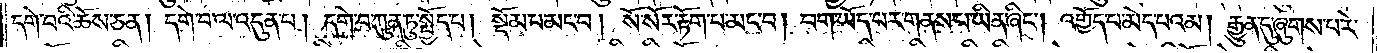དགེ་བའི་ཆོས་ཅན། དགེ་བ་ལ་འདུན་པ། དགེ་བ་ཀུན་ཏུ་སྤྱོད་པ། སྡོམ་པ་མང་བ། སོ་སོར་རྟོག་པ་མང་བ། བག་ཡོད་པར་གནས་པ་ཡིན་ཞིང༌། འགྱོད་པ་མེད་པའམ། རྒྱུན་དུ་ཞུགས་པ་རེ་
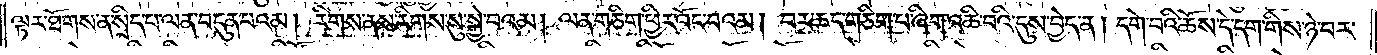ལྟར་ཐོགས་ན་སྲིད་པ་ལན་བདུན་པའམ། རིགས་ནས་རིགས་སུ་སྐྱེ་བའམ། ལན་གཅིག་ཕྱིར་འོང་བའམ། བར་ཆད་གཅིག་པ་ཞིག་འཆི་བའི་དུས་བྱེད་ན། དགེ་བའི་ཆོས་དེ་དག་གིས་ཉེ་བར་
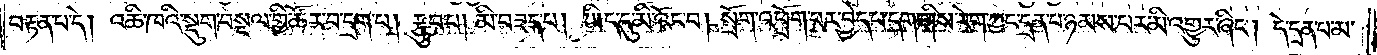བརྟན་པ་དེ། འཆི་ཁའི་སྡུག་བསྔལ་གྱི་ཚོར་བ་དྲག་པ། རྩུབ་པ། མི་བཟད་པ། ཡིད་དུ་མི་འོང་བ། སྲོག་འཕྲོག་པར་བྱེད་པ་དག་གིས་རེག་ཀྱང་དྲན་པ་ཉམས་པར་མི་འགྱུར་ཞིང༌། དེ་དྲན་པ་མ་
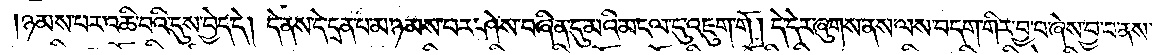ཉམས་པར་འཆི་བའི་དུས་བྱེད་དེ། དེ་ནས་དེ་དྲན་པ་མ་ཉམས་པར་ཤེས་བཞིན་དུ་མའི་མངལ་དུ་འཇུག་གོ། དེ་དེར་ཞུགས་ནས་ལས་བདག་གིར་བྱ་བ་ཞེས་བྱ་བ་ནས་
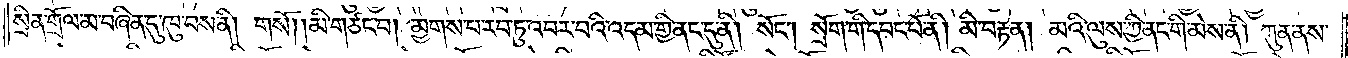སྲིན་གྲོལ་མ་བཞིན་དུ་ཁུ་བས་ནི། གསོ། །མི་གཙང་བ། མྱགས་པ་རབ་ཏུ་འབར་བའི་འདམ་གྱི་ནང་དུ་ནི། སོང༌། སྲོག་གི་དབང་པོ་ནི། མི་བརྟན། མའི་ལུས་ཀྱི་ནང་གི་མེས་ནི། ཀུན་ནས་
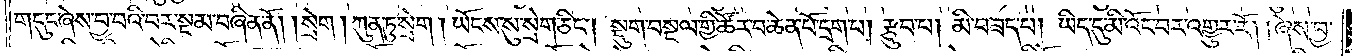གདུང་ཞེས་བྱ་བའི་བར་སྔ་མ་བཞིན་ནོ། །སྲེག། ཀུན་ཏུ་སྲེག། ཡོངས་སུ་སྲེག་ཅིང༌། སྡུག་བསྔལ་གྱི་ཚོར་བ་ཆེན་པོ་དྲག་པ། རྩུབ་པ། མི་བཟད་པ། ཡིད་དུ་མི་འོང་བར་འགྱུར་རོ། །ཞེས་བྱ་
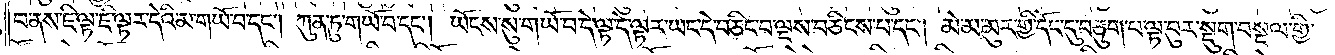བ་ནས་ཇི་ལྟ་ཇི་ལྟར་དེའི་མ་གཡོ་བ་དང༌། ཀུན་ཏུ་གཡོ་བ་དང༌། ཡོངས་སུ་གཡོ་བ་དེ་ལྟ་དེ་ལྟར་ཡང་དེ་བཅིང་བ་ལྔས་བཅིངས་པ་དང༌། མེ་མ་མུར་གྱི་དོང་དུ་བཅུག་པ་ལྟ་བུར་སྡུག་བསྔལ་གྱི་
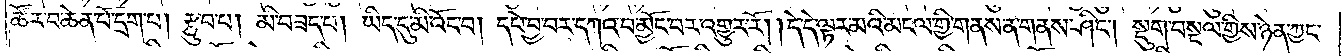ཚོར་བ་ཆེན་པོ་དྲག་པ། རྩུབ་པ། མི་བཟད་པ། ཡིད་དུ་མི་འོང་བ། དཔེ་བྱ་བར་དཀའ་བ་མྱོང་བར་འགྱུར་རོ། །དེ་དེ་ལྟར་མའི་མངལ་གྱི་གནས་ན་གནས་ཤིང༌། སྡུག་བསྔལ་གྱིས་ཉེན་ཀྱང་
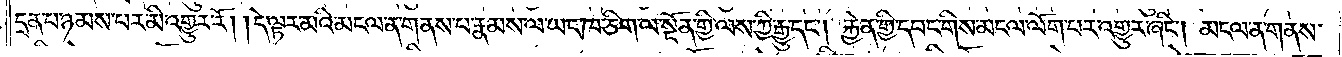དྲན་པ་ཉམས་པར་མི་འགྱུར་རོ། །དེ་ལྟར་མའི་མངལ་ན་གནས་པ་རྣམས་ལ་ཡང་ཁ་ཅིག་ལ་སྔོན་གྱི་ལས་ཀྱི་རྒྱུ་དང༌། རྐྱེན་གྱི་དབང་གིས་མངལ་ལོག་པར་འགྱུར་ཞིང༌། མངལ་ན་གནས་
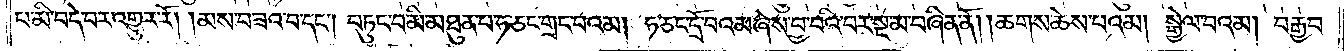པ་མི་བདེ་བར་འགྱུར་རོ། །མས་བཟའ་བ་དང༌། བཏུང་བ་མི་མཐུན་པ་ཧ་ཅང་གྲང་བའམ། ཧ་ཅང་དྲོ་བའམ་ཞེས་བྱ་བའི་བར་སྔ་མ་བཞིན་ནོ། །ཆགས་ཆེས་པའམ། སྒྱེལ་བའམ། བརྒྱབ་
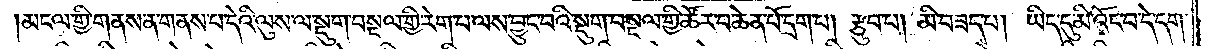མངལ་གྱི་གནས་ན་གནས་པ་དེའི་ལུས་ལ་སྡུག་བསྔལ་གྱི་རེག་པ་ལས་བྱུང་བའི་སྡུག་བསྔལ་གྱི་ཚོར་བ་ཆེན་པོ་དྲག་པ། རྩུབ་པ། མི་བཟད་པ། ཡིད་དུ་མི་འོང་བ་དེ་དག་
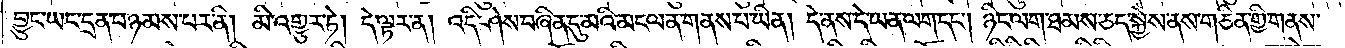བྱུང་ཡང་དྲན་པ་ཉམས་པར་ནི། མི་འགྱུར་ཏེ། དེ་ལྟར་ན། འདི་ཤེས་བཞིན་དུ་མའི་མངལ་ན་གནས་པ་ཡིན། དེ་ནས་དེ་ཡན་ལག་དང༌། ཉིང་ལག་ཐམས་ཅད་སྐྱེས་ནས་གཅིན་གྱི་གནས་
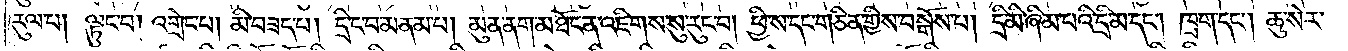རུལ་པ། ལྟུང་བ། འགྲེང་པ། མི་བཟད་པ། དྲི་ང་བ་མནམ་པ། མུན་ནག་མཐོང་ན་འཇིགས་སུ་རུང་བ། ཕྱི་ས་དང་གཅིན་གྱིས་བསྒོས་པ། དྲི་མི་ཞིམ་པའི་དྲི་མ་དང༌། ཁྲག་དང༌། ཆུ་སེར་
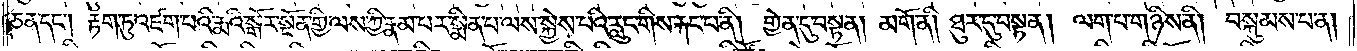ཅན་དང༌། རྟག་ཏུ་འཛག་པའི་རྨའི་སྒོར་སྔོན་གྱི་ལས་ཀྱི་རྣམ་པར་སྨིན་པ་ལས་སྐྱེས་པའི་རླུང་གིས་རྐང་པ་ནི། གྱེན་དུ་བསྟན། མགོ་ནི། ཐུར་དུ་བསྟན། ལག་པ་གཉིས་ནི། བསྐུམས་པ་ན།
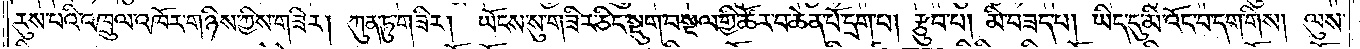རུས་པའི་འཁྲུལ་འཁོར་གཉིས་ཀྱིས་གཟིར། ཀུན་ཏུ་གཟིར། ཡོངས་སུ་གཟིར་ཅིང་སྡུག་བསྔལ་གྱི་ཚོར་བ་ཆེན་པོ་དྲག་པ། རྩུབ་པ། མི་བཟད་པ། ཡིད་དུ་མི་འོང་བ་དག་གིས། ལུས་
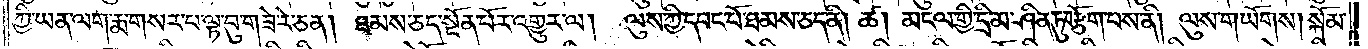ཀྱི་ཡན་ལག་རྨ་གསར་པ་ལྟ་བུ་གཟེ་རེ་ཅན། ཐམས་ཅན་སྔོན་པོར་འགྱུར་ལ། ལུས་ཀྱི་དབང་པོ་ཐམས་ཅད་ནི། ཚ། མངལ་གྱི་དྲི་མ་ཤིན་ཏུ་བརྩོག་པས་ནི། ལུས་གཡོགས། སྐོམ་
